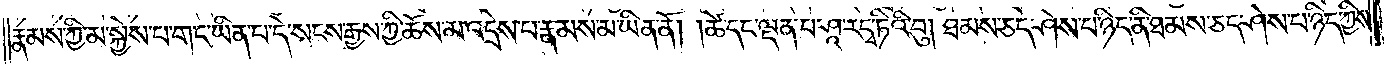རྣམས་ཀྱི་མ་སྐྱེས་པ་གང་ཡིན་པ་དེ་སངས་རྒྱས་ཀྱི་ཆོས་མ་འདྲེས་པ་རྣམས་མ་ཡིན་ནོ། །ཚེ་དང་ལྡན་པ་ཤཱ་ར་དྭ་ཏིའི་བུ། ཐམས་ཅད་ཤེས་པ་ཉིད་ནི་ཐམས་ཅད་ཤེས་པ་ཉིད་ཀྱིས་
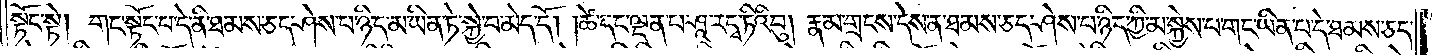སྟོང་སྟེ། གང་སྟོང་པ་དེ་ནི་ཐམས་ཅད་ཤེས་པ་ཉིད་མ་ཡིན་ཏེ་སྐྱེ་བ་མེད་དོ། །ཚེ་དང་ལྡན་པ་ཤཱ་ར་དྭ་ཏིའི་བུ། རྣམ་གྲངས་དེས་ན་ཐམས་ཅད་ཤེས་པ་ཉིད་ཀྱི་མ་སྐྱེས་པ་གང་ཡིན་པ་དེ་ཐམས་ཅད་
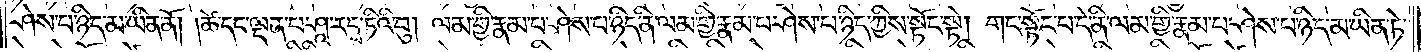ཤེས་པ་ཉིད་མ་ཡིན་ནོ། །ཚེ་དང་ལྡན་པ་ཤཱ་ར་དྭ་ཏིའི་བུ། ལམ་གྱི་རྣམ་པར་ཤེས་པ་ཉིད་ནི་ལམ་གྱི་རྣམ་པར་ཤེས་པ་ཉིད་ཀྱིས་སྟོང་སྟེ། གང་སྟོང་པ་དེ་ནི་ལམ་གྱི་རྣམ་པ་ཤེས་པ་ཉིད་མ་ཡིན་ཏེ་
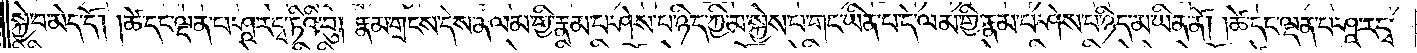སྐྱེ་བ་མེད་དོ། །ཚེ་དང་ལྡན་པ་ཤཱ་ར་དྭ་ཏིའི་བུ། རྣམ་གྲངས་དེས་ན་ལམ་གྱི་རྣམ་པར་ཤེས་པ་ཉིད་ཀྱི་མ་སྐྱེས་པ་གང་ཡིན་པ་དེ་ལམ་གྱི་རྣམ་པར་ཤེས་པ་ཉིད་མ་ཡིན་ནོ། །ཚེ་དང་ལྡན་པ་ཤཱ་ར་དྭ་
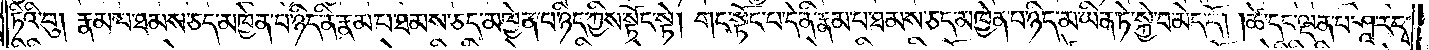ཏིའི་བུ། རྣམ་པ་ཐམས་ཅད་མཁྱེན་པ་ཉིད་ནི་རྣམ་པ་ཐམས་ཅད་མཁྱེན་པ་ཉིད་ཀྱིས་སྟོང་སྟེ། གང་སྟོང་པ་དེ་ནི་རྣམ་པ་ཐམས་ཅད་མཁྱེན་པ་ཉིད་མ་ཡིན་ཏེ་སྐྱེ་བ་མེད་དོ། །ཚེ་དང་ལྡན་པ་ཤཱ་ར་དྭ་
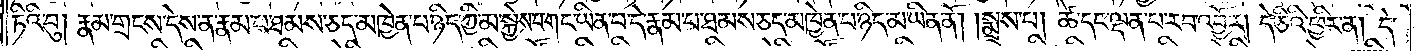ཏིའི་བུ། རྣམ་གྲངས་དེས་ན་རྣམ་པ་ཐམས་ཅད་མཁྱེན་པ་ཉིད་ཀྱི་མ་སྐྱེས་པ་གང་ཡིན་པ་དེ་རྣམ་པ་ཐམས་ཅད་མཁྱེན་པ་ཉིད་མ་ཡིན་ནོ། །སྨྲས་པ། ཚེ་དང་ལྡན་པ་རབ་འབྱོར། དེ་ཅིའི་ཕྱིར་ན། དེ་
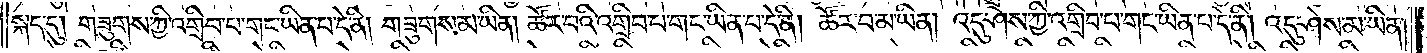སྐད་དུ། གཟུགས་ཀྱི་འགྲིབ་པ་གང་ཡིན་པ་དེ་ནི། གཟུགས་མ་ཡིན། ཚོར་བའི་འགྲིབ་པ་གང་ཡིན་པ་དེ་ནི། ཚོར་བ་མ་ཡིན། འདུ་ཤེས་ཀྱི་འགྲིབ་པ་གང་ཡིན་པ་དེ་ནི། འདུ་ཤེས་མ་ཡིན།
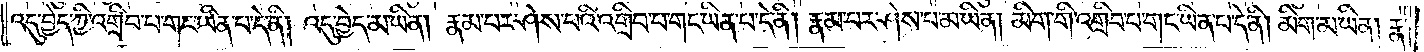འདུ་བྱེད་ཀྱི་འགྲིབ་པ་གང་ཡིན་པ་དེ་ནི། འདུ་བྱེད་མ་ཡིན། རྣམ་པར་ཤེས་པའི་འགྲིབ་པ་གང་ཡིན་པ་དེ་ནི། རྣམ་པར་ཤེས་པ་མ་ཡིན། མིག་གི་འགྲིབ་པ་གང་ཡིན་པ་དེ་ནི། མིག་མ་ཡིན། རྣ་
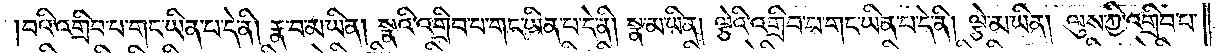བའི་འགྲིབ་པ་གང་ཡིན་པ་དེ་ནི། རྣ་བ་མ་ཡིན། སྣའི་འགྲིབ་པ་གང་ཡིན་པ་དེ་ནི། སྣ་མ་ཡིན། ལྕེའི་འགྲིབ་པ་གང་ཡིན་པ་དེ་ནི། ལྕེ་མ་ཡིན། ལུས་ཀྱི་འགྲིབ་པ་
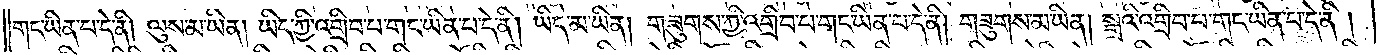གང་ཡིན་པ་དེ་ནི། ལུས་མ་ཡིན། ཡིད་ཀྱི་འགྲིབ་པ་གང་ཡིན་པ་དེ་ནི། ཡིད་མ་ཡིན། གཟུགས་ཀྱི་འགྲིབ་པ་གང་ཡིན་པ་དེ་ནི། གཟུགས་མ་ཡིན། སྒྲའི་འགྲིབ་པ་གང་ཡིན་པ་དེ་ནི།
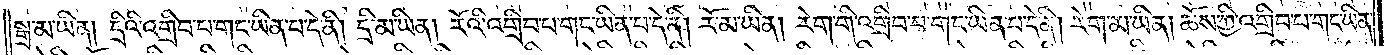སྒྲ་མ་ཡིན། དྲིའི་འགྲིབ་པ་གང་ཡིན་པ་དེ་ནི། དྲི་མ་ཡིན། རོའི་འགྲིབ་པ་གང་ཡིན་པ་དེ་ནི། རོ་མ་ཡིན། རེག་གི་འགྲིབ་པ་གང་ཡིན་པ་དེ་ནི། རེག་མ་ཡིན། ཆོས་ཀྱི་འགྲིབ་པ་གང་ཡིན་
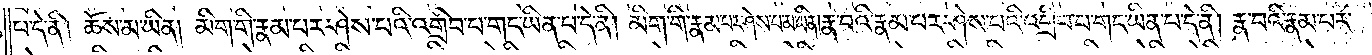པ་དེ་ནི། ཆོས་མ་ཡིན། མིག་གི་རྣམ་པར་ཤེས་པའི་འགྲིབ་པ་གང་ཡིན་པ་དེ་ནི། མིག་གི་རྣམ་པར་ཤེས་པ་མ་ཡིན། རྣ་བའི་རྣམ་པར་ཤེས་པའི་འགྲིབ་པ་གང་ཡིན་པ་དེ་ནི། རྣ་བའི་རྣམ་པར་
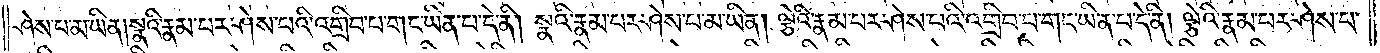ཤེས་པ་མ་ཡིན། སྣའི་རྣམ་པར་ཤེས་པའི་འགྲིབ་པ་གང་ཡིན་པ་དེ་ནི། སྣའི་རྣམ་པར་ཤེས་པ་མ་ཡིན། ལྕེའི་རྣམ་པར་ཤེས་པའི་འགྲིབ་པ་གང་ཡིན་པ་དེ་ནི། ལྕེའི་རྣམ་པར་ཤེས་པ་
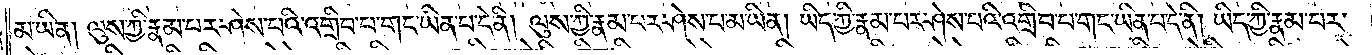མ་ཡིན། ལུས་ཀྱི་རྣམ་པར་ཤེས་པའི་འགྲིབ་པ་གང་ཡིན་པ་དེ་ནི། ལུས་ཀྱི་རྣམ་པར་ཤེས་པ་མ་ཡིན། ཡིད་ཀྱི་རྣམ་པར་ཤེས་པའི་འགྲིབ་པ་གང་ཡིན་པ་དེ་ནི། ཡིད་ཀྱི་རྣམ་པར་
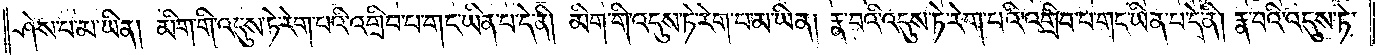ཤེས་པ་མ་ཡིན། མིག་གི་འདུས་ཏེ་རེག་པའི་འགྲིབ་པ་གང་ཡིན་པ་དེ་ནི། མིག་གི་འདུས་ཏེ་རེག་པ་མ་ཡིན། རྣ་བའི་འདུས་ཏེ་རེག་པའི་འགྲིབ་པ་གང་ཡིན་པ་དེ་ནི། རྣ་བའི་འདུས་ཏེ་
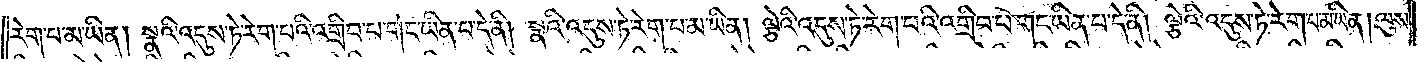རེག་པ་མ་ཡིན། སྣའི་འདུས་ཏེ་རེག་པའི་འགྲིབ་པ་གང་ཡིན་པ་དེ་ནི། སྣའི་འདུས་ཏེ་རེག་པ་མ་ཡིན། ལྕེའི་འདུས་ཏེ་རེག་པའི་འགྲིབ་པ་གང་ཡིན་པ་དེ་ནི། ལྕེའི་འདུས་ཏེ་རེག་པ་མ་ཡིན། ལུས་
